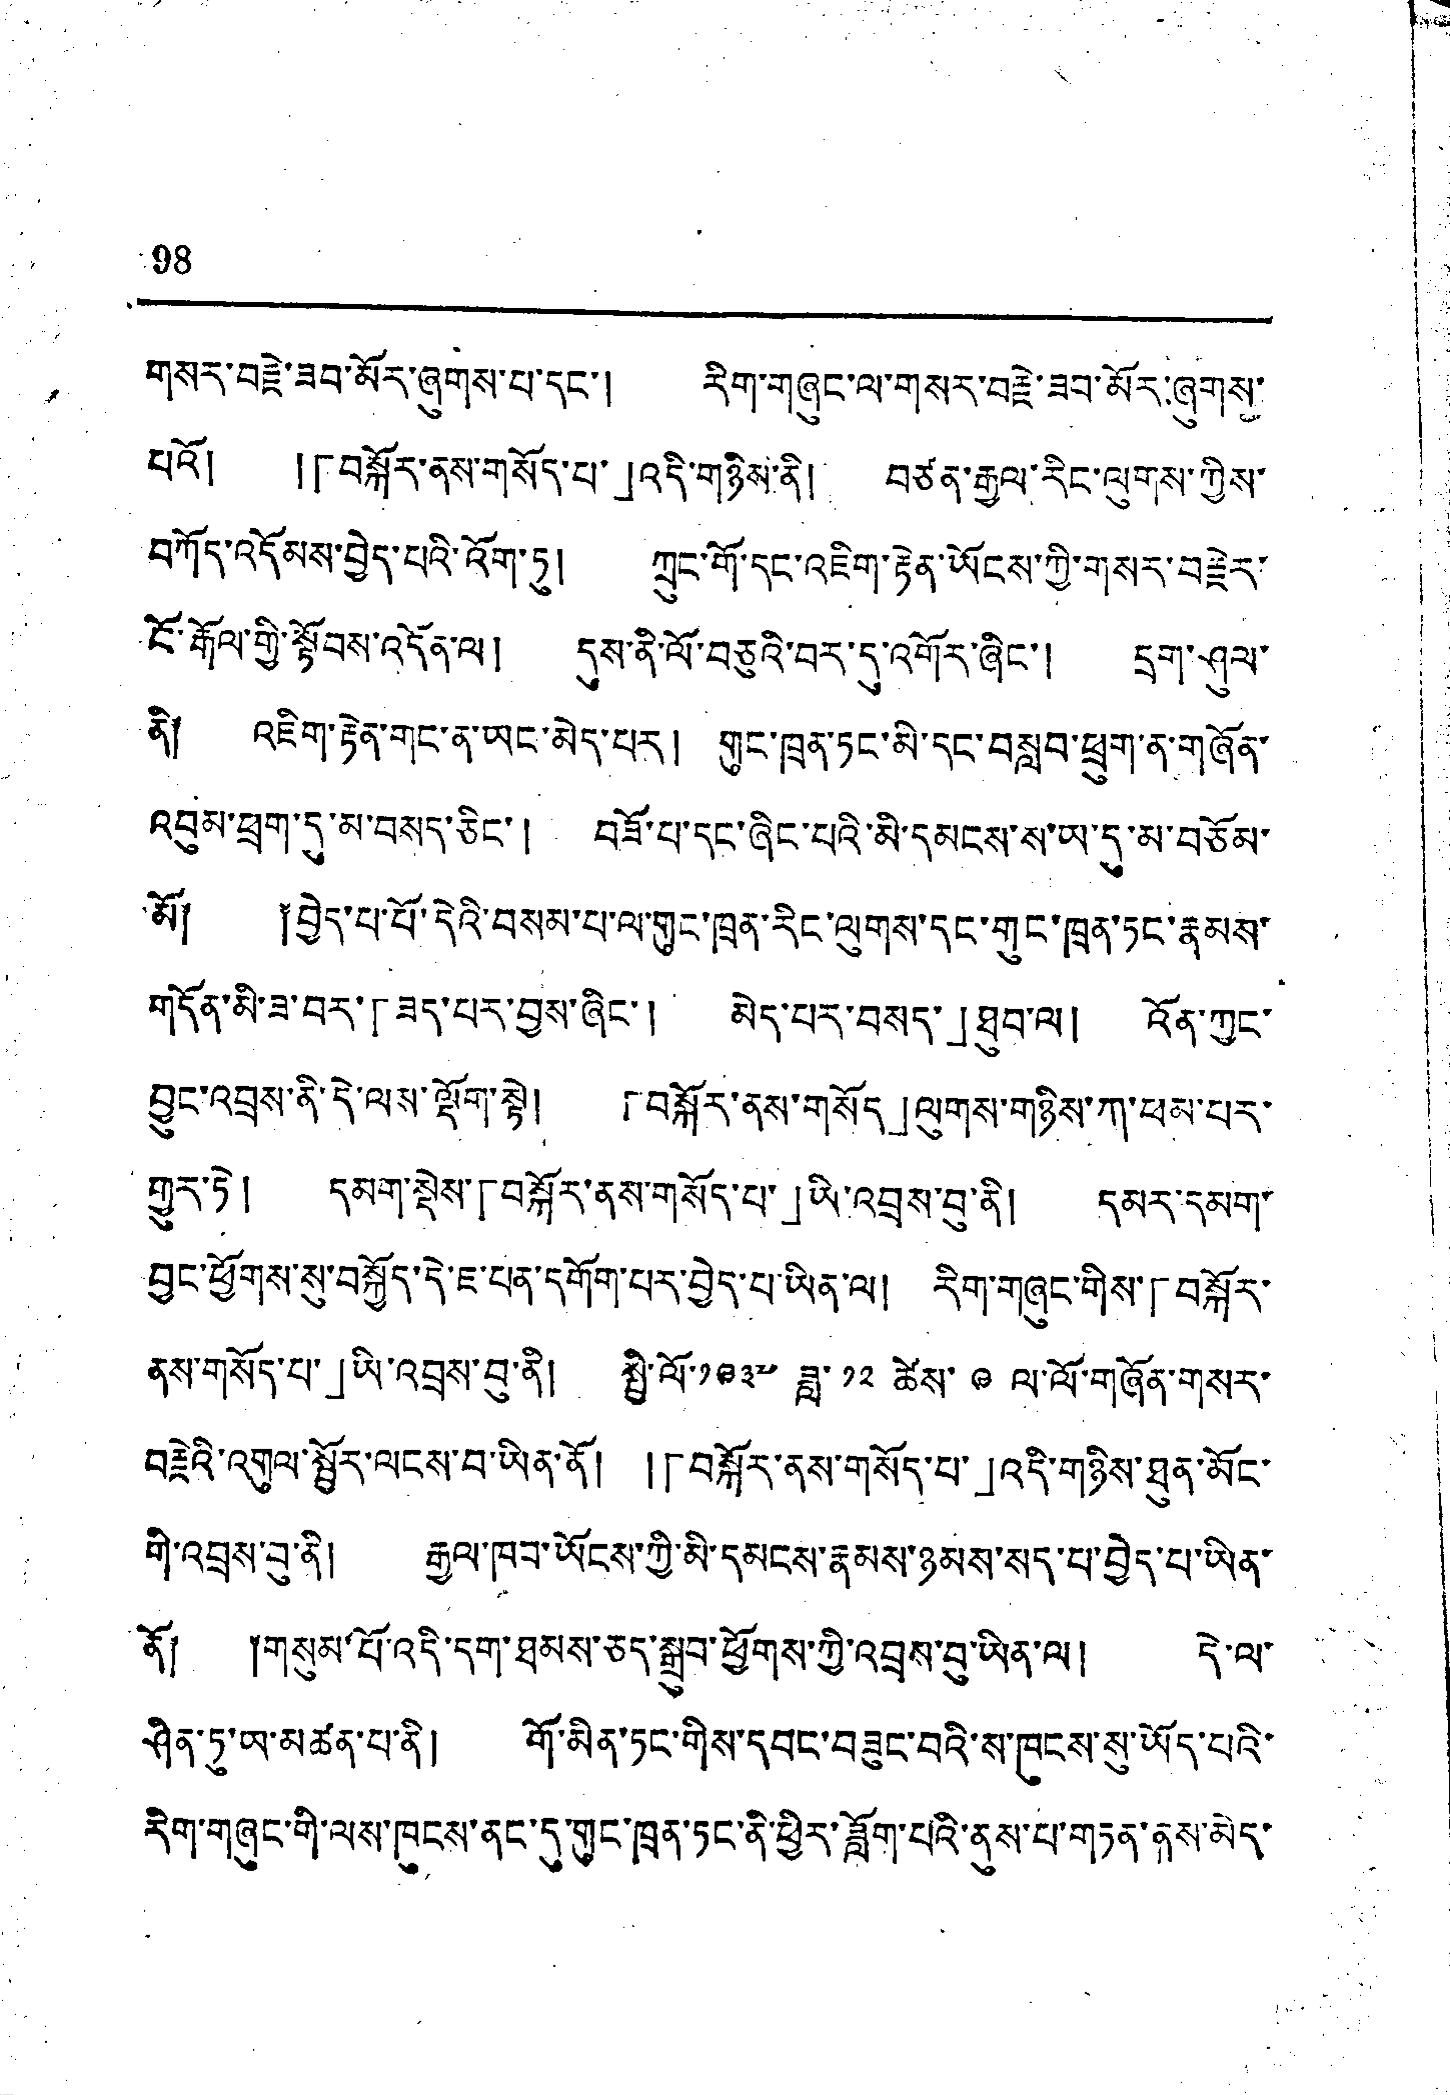98
གསར་བརྗེ་ཟབ་མོར་ཞུགས་པ་དང་། རིག་གཞུང་ལ་གསར་བརྗེ་ཟབ་མོར་ཞུགས་
པའོ། །「བསྐོར་ནས་གསོད་པ་」འདི་གཉིས་ནི། བཙན་རྒྱལ་རིང་ལུགས་ཀྱིས་
བཀོད་འདོམས་བྱེད་པའི་འོག་ཏུ། ཀྲུང་གོ་དང་འཇིག་རྟེན་ཡོངས་ཀྱི་གསར་བརྗེར་
ངོ་རྒོལ་གྱི་སྟོབས་འདོན་ལ། དུས་ནི་ལོ་བཅུའི་བར་དུ་འགོར་ཞིང་། དྲག་ཤུལ་
ནི། འཇིག་རྟེན་གང་ན་ཡང་མེད་པར། གུང་ཁྲན་ཏང་མི་དང་བསླབ་ཕྲུག་ན་གཞོན་
འབུམ་ཕྲག་དུ་མ་བསད་ཅིང་། བཟོ་པ་དང་ཞིང་པའི་མི་དམངས་ས་ཡ་དུ་མ་བཅོམ་
མོ། ༐བྱེད་པ་པོ་དེའི་བསམ་པ་ལ་གུང་ཁྲན་རིང་ལུགས་དང་གུང་ཁྲན་ཏང་རྣམས་
གདོན་མི་ཟ་བར་「ཟད་པར་བྱས་ཞིང་། མེད་པར་བསད་」ཐུབ་ལ། འོན་ཀྱང་
བྱུང་འབྲས་ནི་དེ་ལས་ལྡོག་སྟེ། 「བསྐོར་ནས་གསོད」ལུགས་གཉིས་ཀ་ཕམ་པར་
གྱུར་ཏེ། དམག་སྡེས་「བསྐོར་ནས་གསོད་པ་」ཡི་འབྲས་བུ་ནི། དམར་དམག་
བྱང་ཕྱོགས་སུ་བསྐྱོད་དེ་ཇ་པན་དགོག་པར་བྱེད་པ་ཡིན་ལ། རིག་གཞུང་གིས་「བསྐོར་
ནས་གསོད་པ་」ཡི་འབྲས་བུ་ནི། སྤྱི་ལོ་༡༩༣༧ ཟླ་ ༡༢ ཚེས་ ༩ ལ་ལོ་གཞོན་གསར་
བརྗེའི་འགུལ་སྦྱོར་ལངས་བ་ཡིན་ནོ། །「བསྐོར་ནས་གསོད་པ་」འདི་གཉིས་ཐུན་མོང་
གི་འབྲས་བུ་ནི། རྒྱལ་ཁབ་ཡོངས་ཀྱི་མི་དམངས་རྣམས་ཉམས་སད་པ་བྱེད་པ་ཡིན་
ནོ༐ ༐གསུམ་པོ་འདི་དག་ཐམས་ཅད་སྒྲུབ་ཕྱོགས་ཀྱི་འབྲས་བུ་ཡིན་ལ། དེ་ལ་
ཤིན་ཏུ་ཡ་མཚན་པ་ནི། གོ་མིན་ཏང་གིས་དབང་བཟུང་བའི་ས་ཁུངས་སུ་ཡོད་པའི་
རིག་གཞུང་གི་ལས་ཁུངས་ནང་དུ་གུང་ཁྲན་ཏང་ནི་ཕྱིར་ཟློག་པའི་ནུས་པ་གཏན་ནས་མེད་
